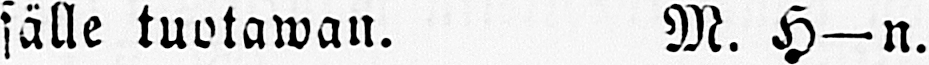sälle tuotawan. M. H—n.
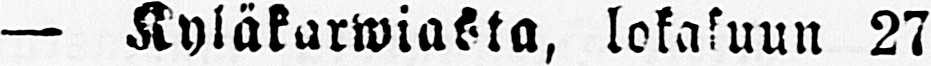— Kyläkarwiasta, lokakuun 27
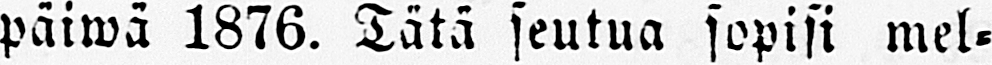päiwä 1876. Tätä seutua sopisi mel-
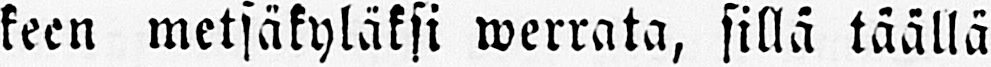keen metsäkyläksi werrata, sillä täällä
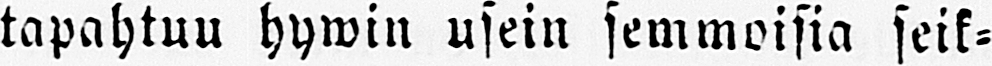tapahtuu hywin usein semmoisia seik-
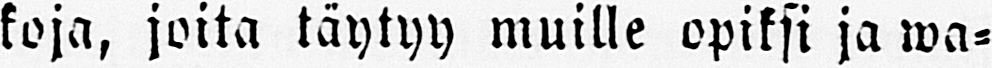koja, joita täytyy muille opiksi ja wa-
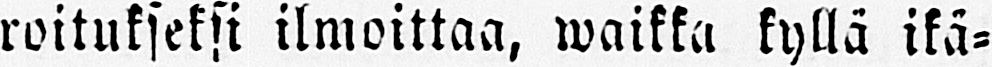roitukseksi ilmoittaa, waikka kyllä ikä-
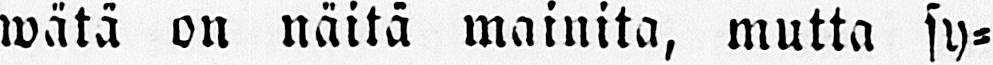wätä on näitä mainita, mutta sy-
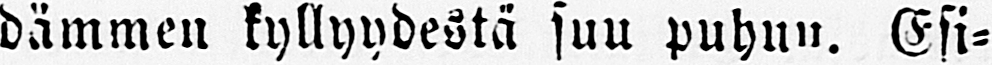dämmen kyllyydestä suu puhuu. Esi-
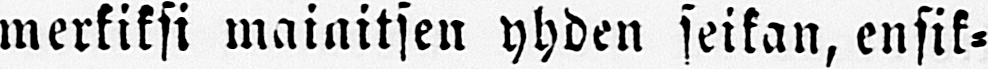merkiksi mainitsen yhden seikan, ensik-
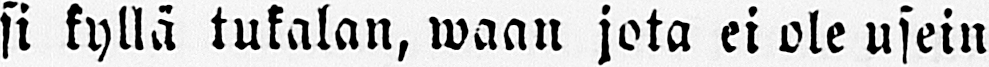si kyllä tukalan, waan jota ei ole usein
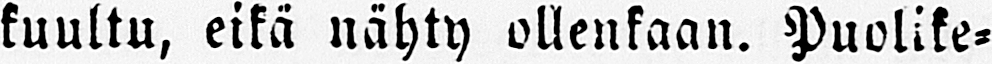kuultu, eikä nähty ollenkaan. Puolike-
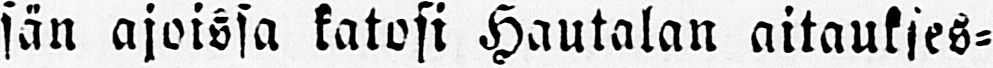sän ajoissa katosi Hautalan aitaukses-
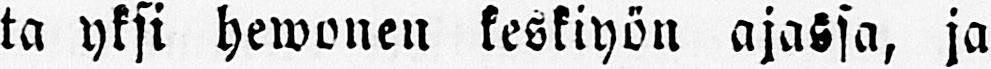ta yksi hewonen keskiyön ajassa, ja
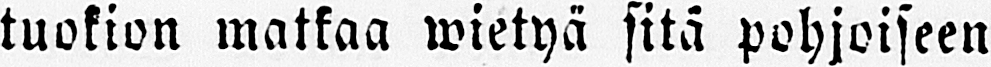tuokion matkaa wietyä sitä pohjoiseen
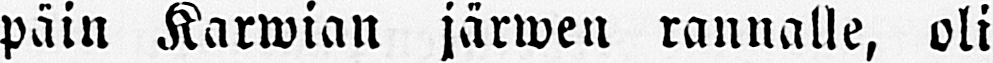päin Karwian järwen rannalle, oli
